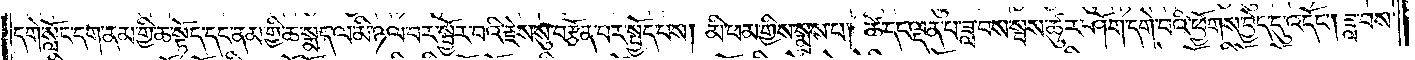དགེ་སློང་དག་ནམ་གྱི་ཆ་སྟོད་དང་ནམ་གྱི་ཆ་སྨད་ལ་མི་ཉལ་བར་སྦྱོར་བའི་རྗེས་སུ་བརྩོན་པར་སྤྱོད་པས། མི་ཕམ་གྱིས་སྨྲས་པ། ཚེ་དང་ལྡན་པ་ཟླ་བ་སྦས་ཚུར་ཤོག་དགེ་བའི་ཕྱོགས་བྱེད་དུ་འདོང༌། ཟླ་བས་
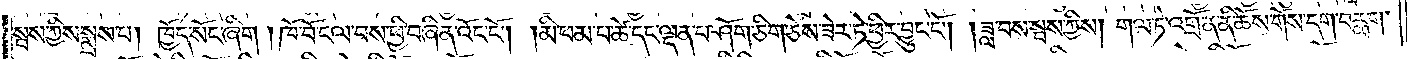སྦས་ཀྱིས་སྨྲས་པ། ཁྱོད་སོང་ཞིག །ཁོ་བོ་ངལ་བས་ཕྱི་བཞིན་འོང་ངོ༌། །མི་ཕམ་པ་ཚེ་དང་ལྡན་པ་ཤོག་ཅིག་ཅེས་ཟེར་ཏེ་ཕྱིར་བྱུང་ངོ༌། །ཟླ་བས་སྦས་ཀྱིས། གལ་ཏེ་འགྲོ་ན་ནི་ཆོས་གོས་དག་བརླག་
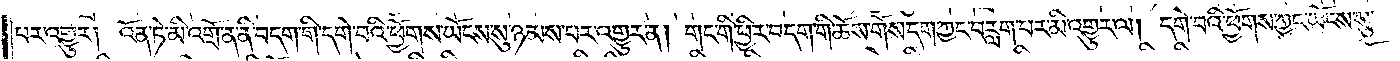པར་འགྱུར། འོན་ཏེ་མི་འགྲོ་ན་ནི་བདག་གི་དགེ་བའི་ཕྱོགས་ཡོངས་སུ་ཉམས་པར་འགྱུར་ན། གང་གི་ཕྱིར་བདག་གི་ཆོས་གོས་དག་ཀྱང་བརླག་པར་མི་འགྱུར་ལ། དགེ་བའི་ཕྱོགས་ཀྱང་ཡོངས་སུ་
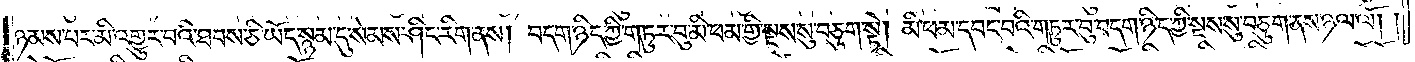ཉམས་པར་མི་འགྱུར་བའི་ཐབས་ཅི་ཡོད་སྙམ་དུ་སེམས་ཤིང་རིག་ནས། བདག་ཉིད་ཀྱི་གཏུར་བུ་མི་ཕམ་གྱི་སྔས་སུ་བཅུག་སྟེ། མི་ཕམ་དབང་བའི་གཏུར་བུ་བདག་ཉིད་ཀྱི་སྔས་སུ་བཅུག་ནས་ཉལ་ལོ། །
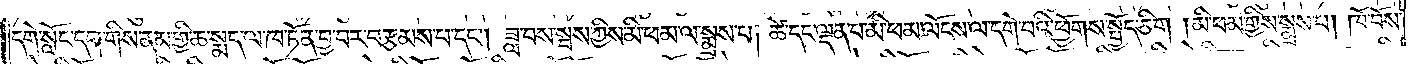དགེ་སློང་དག་གིས་ནམ་གྱི་ཆ་སྨད་ལ་ཁ་ཏོན་བྱ་བར་བརྩམས་པ་དང༌། ཟླ་བས་སྦས་ཀྱིས་མི་ཕམ་ལ་སྨྲས་པ། ཚེ་དང་ལྡན་པ་མི་ཕམ་ལོངས་ལ་དགེ་བའི་ཕྱོགས་སྤྱོད་ཅིག །མི་ཕམ་གྱིས་སྨྲས་པ། ཁོ་བོས་
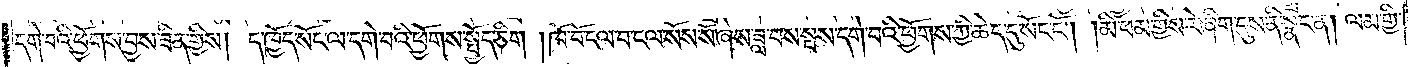དགེ་བའི་ཕྱོགས་བྱས་ཟིན་གྱིས། ད་ཁྱོད་སོང་ལ་དགེ་བའི་ཕྱོགས་སྤྱོད་ཅིག །ཁོ་བོ་ངལ་བ་ངལ་སོས་སོ་ཞེས་ཟླ་བས་སྦས་དགེ་བའི་ཕྱོགས་ཀྱི་ཆེད་དུ་སོང་ངོ༌། །མི་ཕམ་གྱིས་རེ་ཞིག་དུས་ནི་སྣང་ན། ལམ་གྱི་
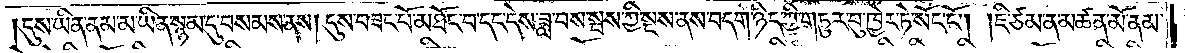དུས་ཡིན་ནམ་མ་ཡིན་སྙམ་དུ་བསམས་ནས། དུས་བཟང་པོ་མཐོང་བ་དང་དེས་ཟླ་བས་སྦས་ཀྱི་སྔ་ནས་བདག་ཉིད་ཀྱི་གཏུར་བུ་ཁྱེར་ཏེ་སོང་ངོ༌། །ཇི་ཙམ་ན་མཚན་མོ་ནམ་
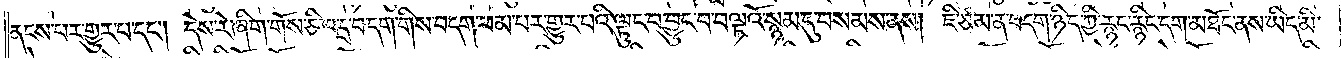ནངས་པར་གྱུར་པ་དང༌། དེས་རེ་ཞིག་གོས་ཅི་འདྲ་བ་དག་གིས་བདག་ཕམ་པར་གྱུར་པའི་ལྟུང་བ་བྱུང་བ་བལྟའོ་སྙམ་དུ་བསམས་ནས། ཇི་ཙམ་ན་བདག་ཉིད་ཀྱི་རྙང་རྙིང་དག་མཐོང་ནས་ཡིད་མི་
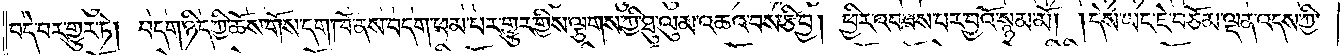བདེ་བར་གྱུར་ཏེ། བདག་ཉིད་ཀྱི་ཆོས་གོས་དག་ཁོ་ནས་བདག་ཕམ་པར་གྱུར་གྱིས་ལྕགས་ཀྱི་ཐུ་ལུམ་འཆའ་བས་ཅི་བྱ། ཕྱིར་འབབས་པར་བྱའོ་སྙམ་མོ། །དེས་ཡང་ཇེ་བཅོམ་ལྡན་འདས་ཀྱི་
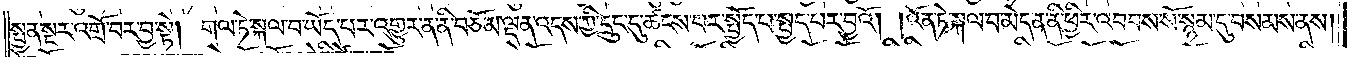སྤྱན་སྔར་འགྲོ་བར་བྱ་སྟེ། གལ་ཏེ་སྐལ་པ་ཡོད་པར་འགྱུར་ན་ནི་བཅོམ་ལྡན་འདས་ཀྱི་དྲུང་དུ་ཚངས་པར་སྤྱོད་པ་སྤྱད་པར་བྱའོ། །འོན་ཏེ་སྐལ་པ་མེད་ན་ནི་ཕྱིར་འབབས་སོ་སྙམ་དུ་བསམས་ནས།
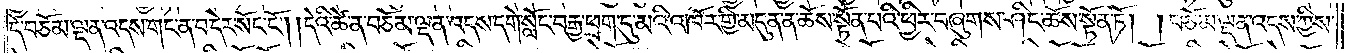དེ་བཅོམ་ལྡན་འདས་གང་ན་བ་དེར་སོང་ངོ༌། །དེའི་ཚེ་ན་བཅོམ་ལྡན་འདས་དགེ་སློང་བརྒྱ་ཕྲག་དུ་མའི་འཁོར་གྱི་མདུན་ན་ཆོས་སྟོན་པའི་ཕྱིར་བཞུགས་ཤིང་ཆོས་སྟོན་ཏོ། །བཅོམ་ལྡན་འདས་ཀྱིས་
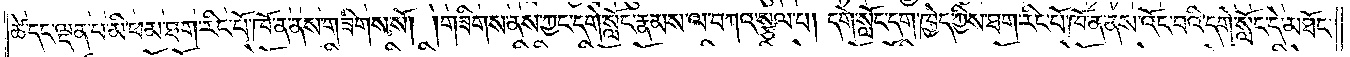ཚེ་དང་ལྡན་པ་མི་ཕམ་ཐག་རིང་པོ་ཁོ་ན་ནས་གཟིགས་སོ། །གཟིགས་ནས་ཀྱང་དགེ་སློང་རྣམས་ལ་བཀའ་སྩལ་པ། དགེ་སློང་དག་ཁྱེད་ཀྱིས་ཐག་རིང་པོ་ཁོ་ན་ནས་འོང་བའི་དགེ་སློང་དེ་མཐོང་
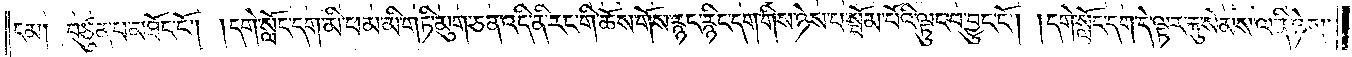ངམ། བཙུན་པ་མཐོང་ངོ༌། །དགེ་སློང་དག་མི་ཕམ་མི་གཏི་མུག་ཅན་འདི་ནི་རང་གི་ཆོས་གོས་རྙང་རྙིང་དག་གིས་ཉེས་པ་སྦོམ་པོའི་ལྟུང་བ་བྱུང་ངོ༌། །དགེ་སློང་དག་དེ་ལྟར་རྐུ་སེམས་ལ་ནི་ཉེས་
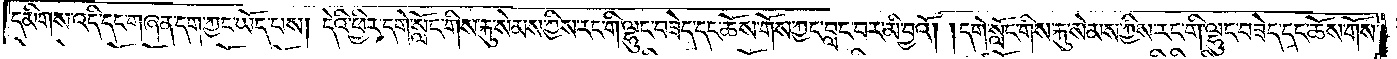དམིགས་འདི་དང་གཞན་དག་ཀྱང་ཡོད་པས། དེའི་ཕྱིར་དགེ་སློང་གིས་རྐུ་སེམས་ཀྱིས་རང་གི་ལྷུང་བཟེད་དང་ཆོས་གོས་ཀྱང་བླང་བར་མི་བྱའོ། །དགེ་སློང་གིས་རྐུ་སེམས་ཀྱིས་རང་གི་ལྷུང་བཟེད་དང་ཆོས་གོས་
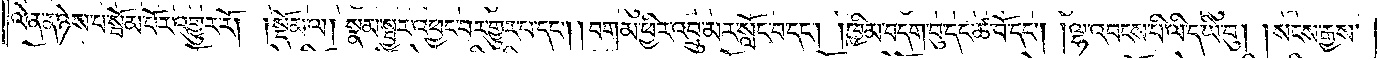ལེན་ན་ཉེས་པ་སྦོམ་པོར་འགྱུར་རོ། །སྡོམ་ལ། སྣམ་སྦྱར་འཕྱང་བར་གྱུར་པ་དང༌། །བགམ་ཕྱིར་འབྲུ་མར་སློང་བ་དང༌། །ཁྱིམ་བདག་བུ་དང་ཚ་བོ་དང༌། །ལྷ་འབངས་པི་ལི་ད་ཡི་བུ། །སངས་རྒྱས་
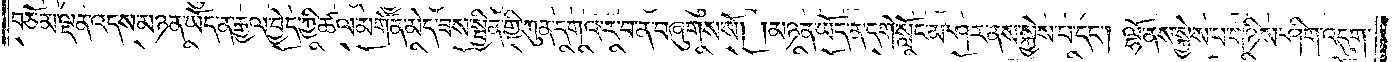བཅོམ་ལྡན་འདས་མཉན་ཡོད་ན་རྒྱལ་བྱེད་ཀྱི་ཚལ་མགོན་མེད་ཟས་སྦྱིན་གྱི་ཀུན་དགའ་ར་བ་ན་བཞུགས་སོ། །མཉན་ཡོད་ན་དགེ་སློང་མ་ཤར་ནས་སྐྱེས་པ་དང༌། ལྷོ་ནས་སྐྱེས་པ་གཉིས་ཤིག་འདུག་
